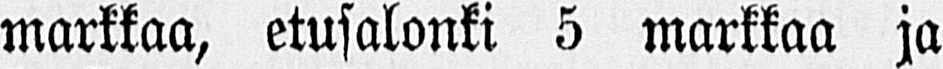markkaa, etusalonki 5 markkaa ja
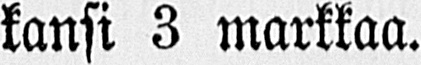kansi 3 markkaa.
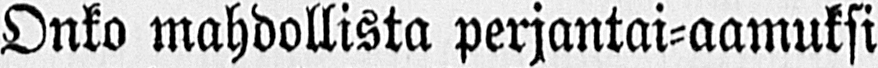Onko mahdollista perjantai-aamuksi
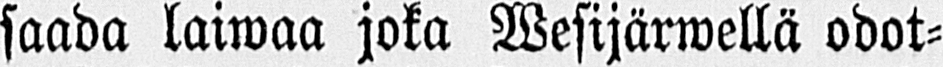saada laiwaa joka Wesijärwellä odot-
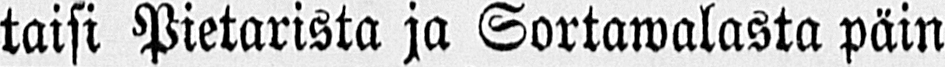taisi Pietarista ja Sortawalasta päin
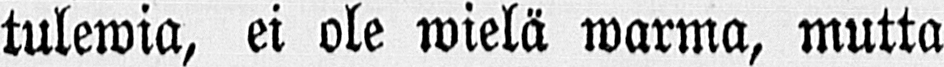tulewia, ei ole wielä warma, mutta
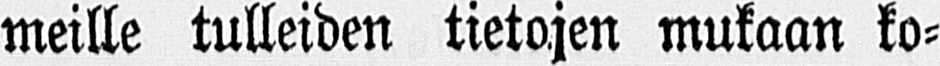meille tulleiden tietojen mukaan ko-
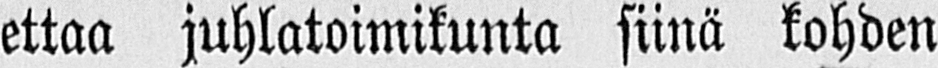ettaa juhlatoimikunta siinä kohden
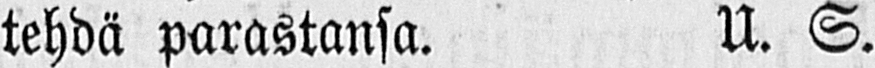tehdä parastansa. U. S.
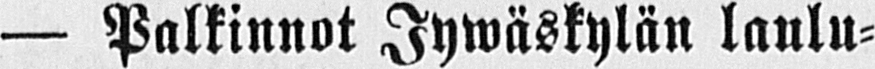— Palkinnot Jywäskylän laulu-
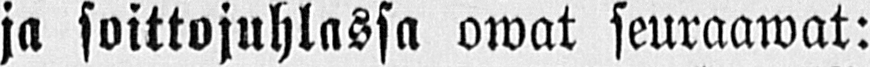ja soittojuhlassa owat seuraawat:
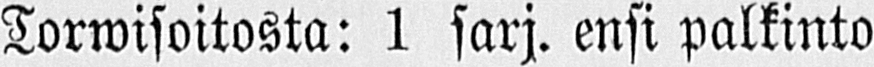Torwisoitosta: 1 sarj. ensi palkinto
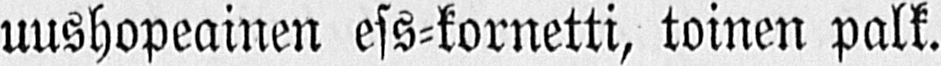uushopeainen ess-kornetti, toinen palk.
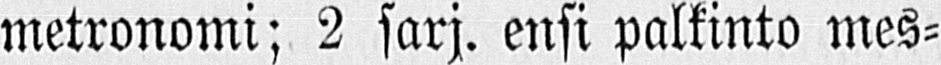metronomi; 2 sarj. ensi palkinto mes-
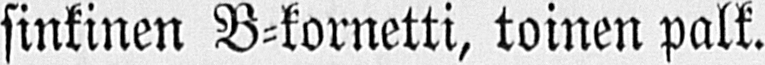sinkinen B-kornetti, toinen palk. „Mat-
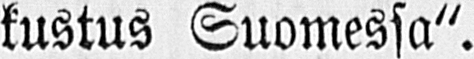kustus Suomessa".
